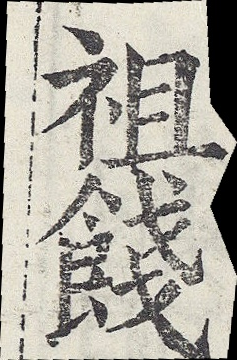祖餞
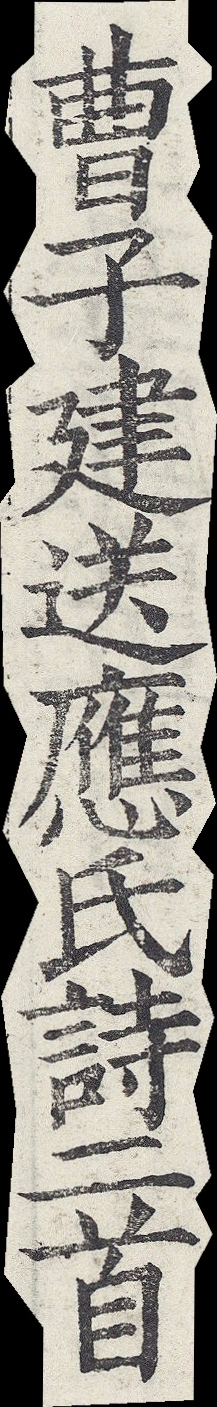曹子建送應氏二詩
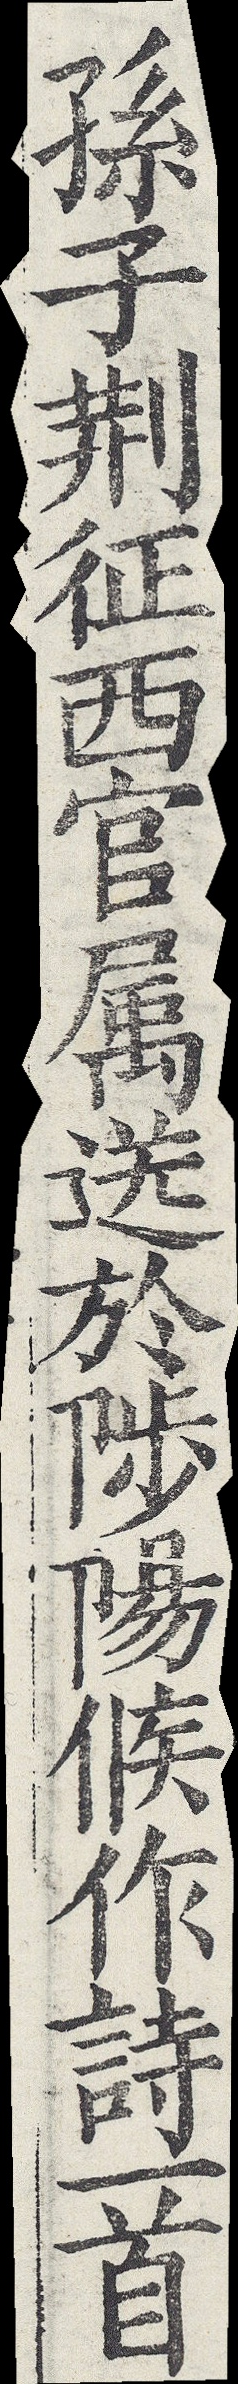孫子荊征西官屬送於陟陽候作詩一首
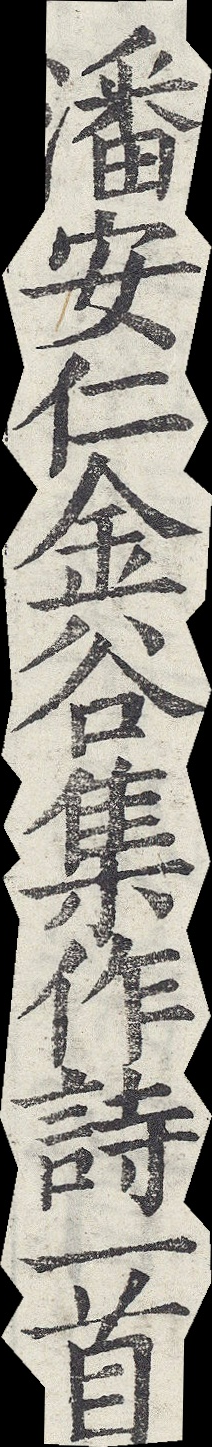潘安仁金谷集作詩一首
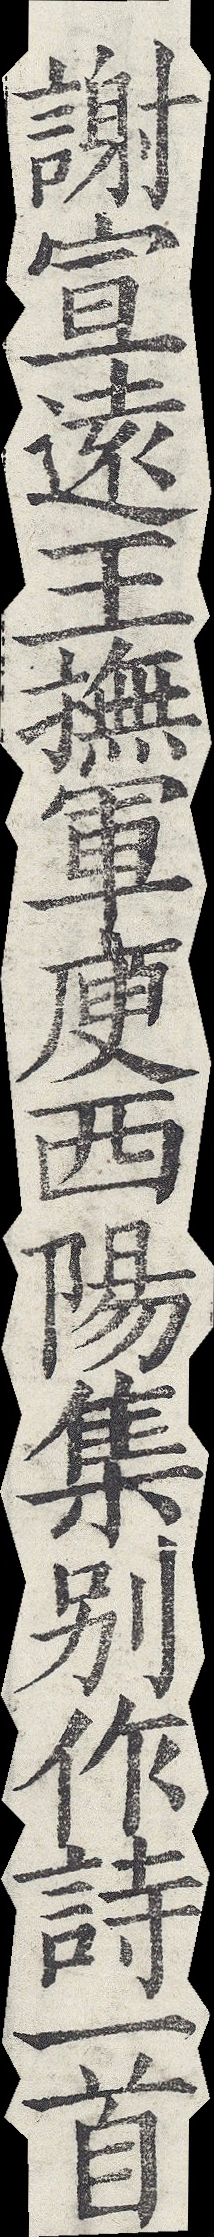謝宣遠王撫軍庾西陽集別作詩一首
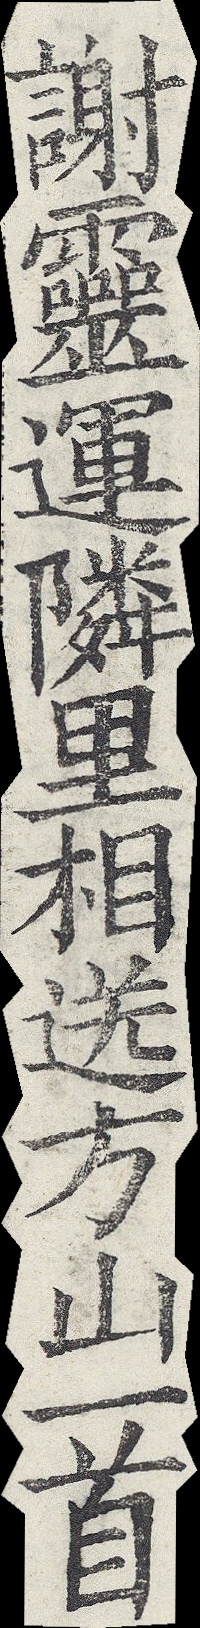謝靈運鄰里相送方山詩一首
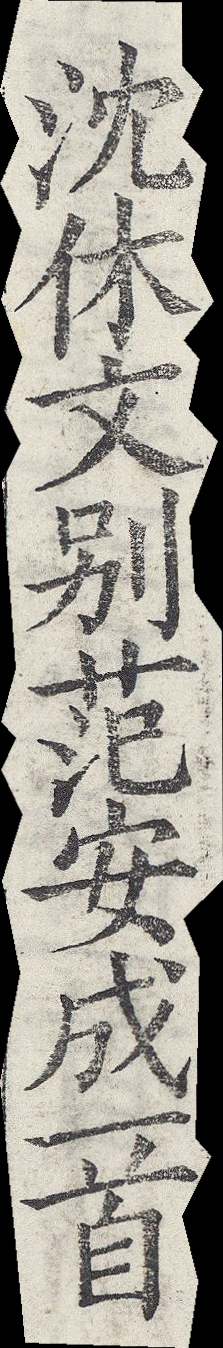沈休文別范安成一首
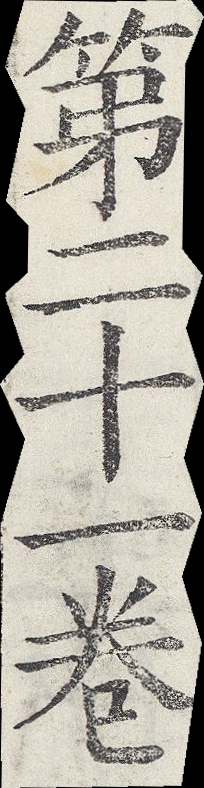第二十一卷
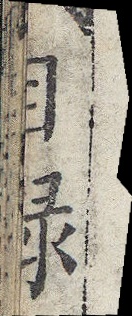目錄
